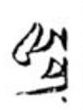དྲུག་
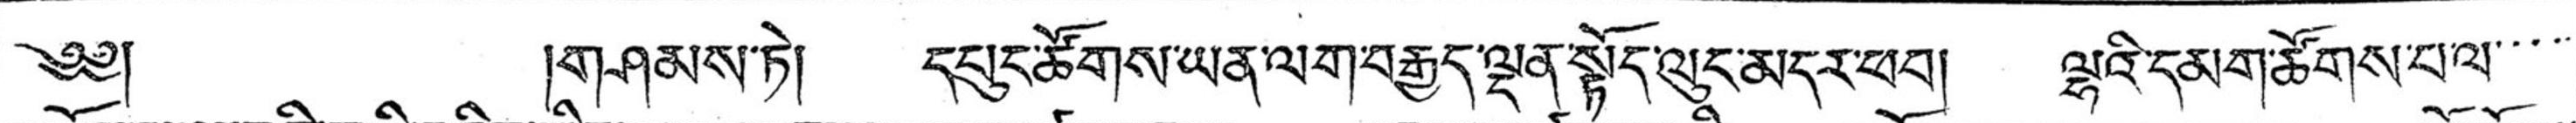༄༅། །གཤམས་ཏེ། དཔུང་ཚོགས་ཡན་ལག་བརྒྱད་ལྡན་སྟོད་ལུང་མདར་ཕབ། ལྷའི་དམག་ཚོགས་པ་ལ་་་་་
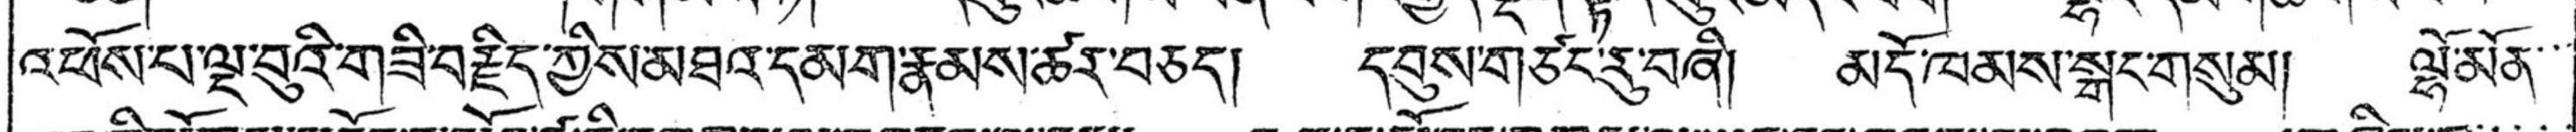འཕོས་པ་ལྔ་བུའི་གཟི་བརྗིད་ཀྱིས་མཐའ་དམག་རྣམས་ཚར་བཅད། དབུས་གཙང་རུ་བཞི། མདོ་ཁམས་སྒང་གསུམ། ལྷོ་མོན་་་
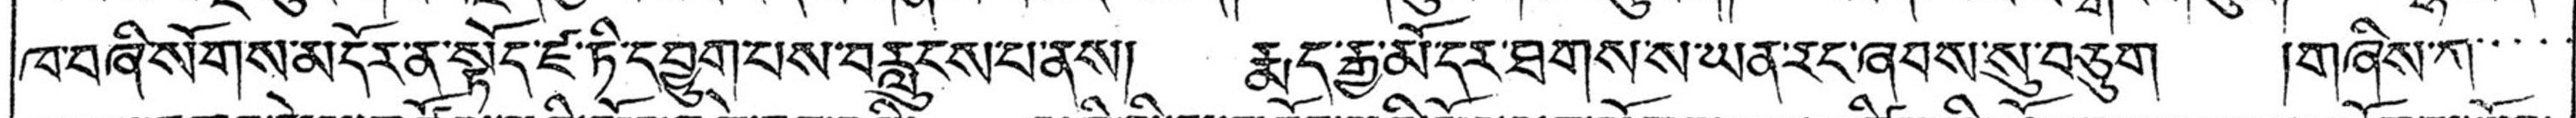ཁ་བཞི་སོགས་མདོར་ན་སྟོད་ཛ་ཏི་དབྱུག་པས་བརླུངས་པ་ནས། རྨད་རྒྱ་མོ་དར་ཐགས་ས་ཡན་རང་ཞབས་སུ་བཅུག །གཞིས་ཀ་་་
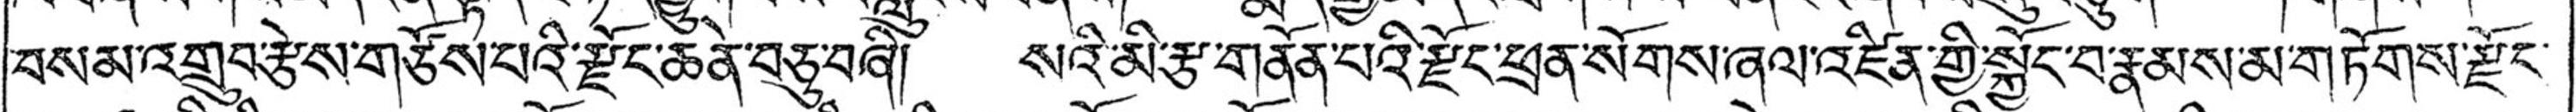བསམ་འགྲུབ་རྩེས་གཙོསཔའི་རྫོང་ཆེན་བཅུ་བཞི། སའི་མི་རྩ་གནོན་པའི་རྫོང་ཕྲན་སོགས་ཞལ་འཛིན་གྱི་སྐྱོང་བ་རྣམས་མ་གཏོགས་རྫོང་
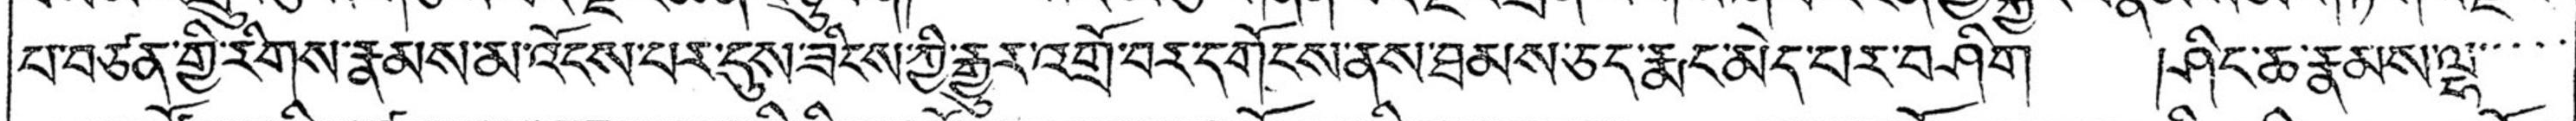པ་བཙན་གྱི་རིགས་རྣམས་མ་འོངས་པར་དུས་ཟིངས་ཀྱི་རྒྱུར་འགྲོ་བར་དགོངས་ནས་ཐམས་ཅད་རྨང་མེད་པར་བཤིག །ཤིང་ཆ་རྣམས་ལྷ་་་
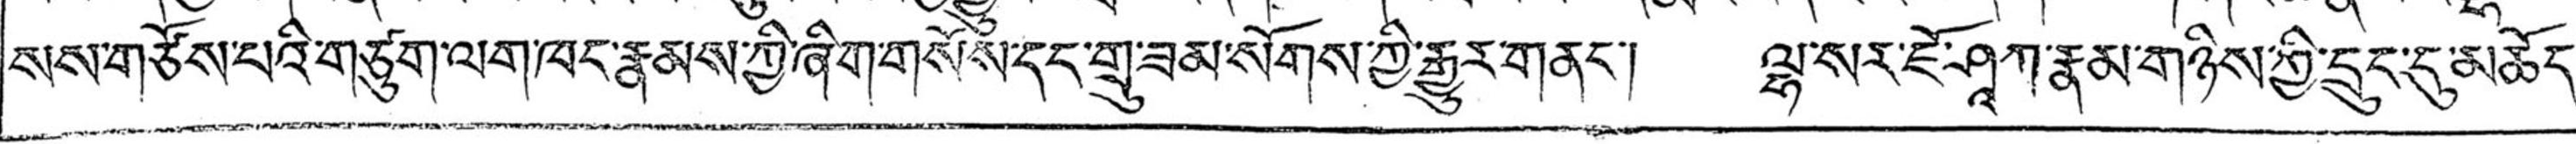སས་གཙོས་པའི་གཙུག་ལག་ཁང་རྣམས་ཀྱི་ཞིག་གསོས་དང་གྲུ་ཟམ་སོགས་ཀྱི་རྒྱུར་གནང་། ལྷ་སར་ཇོ་ཤཱཀ་རྣམ་གཉིས་ཀྱི་དྲུང་དུ་མཆོད་
